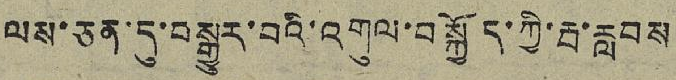ལས་ཅན་དུ་བསྒྱུར་བའི་འགུལ་བསྐྱོད་ཀྱི་རྦ་རླབས
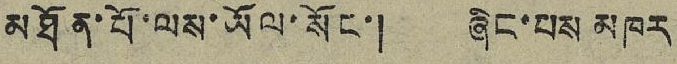མཐོན་པོ་ལས་ཡོལ་སོང་། ཞིང་པས མཁར་
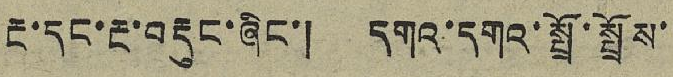རྔ་དང་རྔ་བརྡུང་ཞིང་། དགའ་དགའ་སྤྲོ་སྤྲོས་
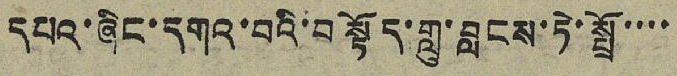དཔའ་ཞིང་དགའ་བའི་བསྟོད་གླུ་བླངས་ཏེ་སྤྲོ་་་་
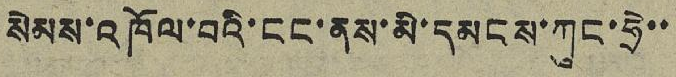སེམས་འཁོལ་བའི་ངང་ནས་མི་དམངས་ཀུང་ཧྲེ་་
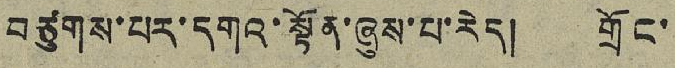བཙུགས་པར་དགའ་སྟོན་ཞུས་པ་རེད། གྲོང་
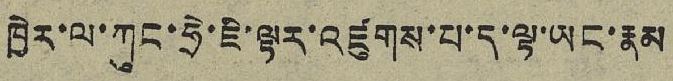ཁྱེར་ལ་ཀུང་ཧྲེ་ཇི་ལྟར་འཛུགས་པ་ད་ལྟ་ཡང་རྣམ
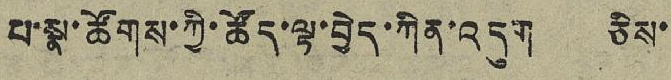པ་སྣ་ཚོགས་ཀྱི་ཚོད་ལྟ་བྱེད་ཀིན་འདུག ཅིས་
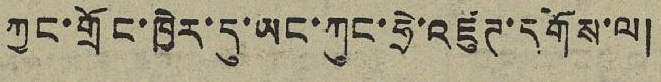ཀྱང་གྲོང་ཁྱེར་དུ་ཡང་ཀུང་ཧྲེ་འཛུཌ་དགོས་ལ།
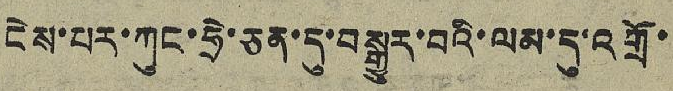ངེས་པར་ཀུང་ཧྲེ་ཅན་དུ་བསྒྱུར་བའི་ལམ་དུ་འགྲོ་
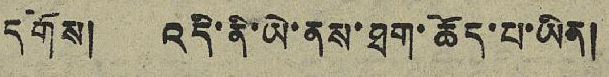དགོས། འདི་ནི་ཡེ་ནས་ཐག་ཆོད་པ་ཡིན།
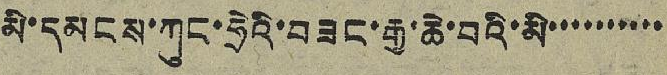མི་དམངས་ཀུང་ཧྲེའི་བཟང་རྒྱ་ཆེ་བའི་མི་་་་་་་་་་
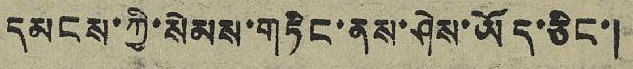དམངས་ཀྱི་སེམས་གཏིང་ནས་ཤེས་ཡོད་ཅིང་།
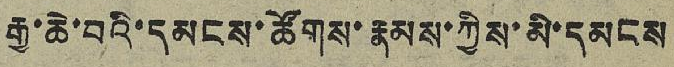རྒྱ་ཆེ་བའི་དམངས་ཚོགས་རྣམས་ཀྱིས་མི་དམངས
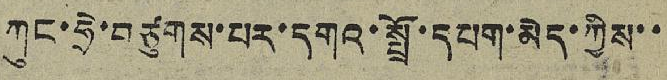ཀུང་ཧྲེ་བཙུགས་པར་དགའ་སྤྲོ་དཔག་མེད་ཀྱིས་་
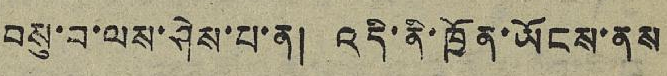བསུ་བ་ལས་ཤེས་པ་ན། འདི་ནི་ཁྱོན་ཡོངས་ནས
